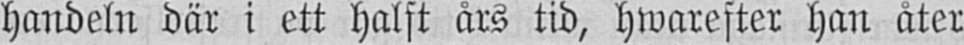handeln där i ett halft års tid, hwarefter han åter
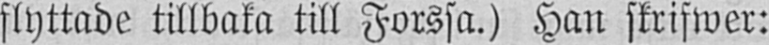flyttade tillbaka till Forssa.) Han skrifwer:
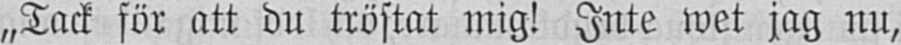„Tack för att du tröstat mig! Inte wet jag nu,
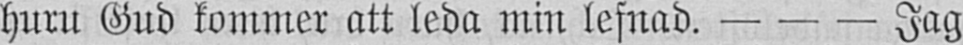huru Gud kommer att leda min lefnad. Jag
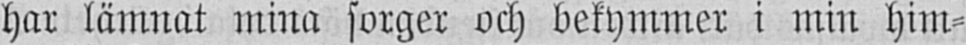har lämnat mina sorger och bekymmer i min him-
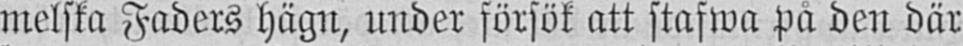melska Faders hägn, under försök att stafwa på den där
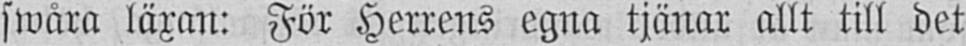swåra läxan: För Herrens egna tjänar allt till det
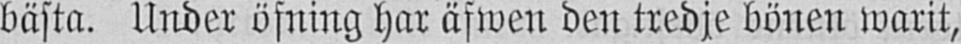bästa. Under öfning har äfwen den tredje bönen warit,
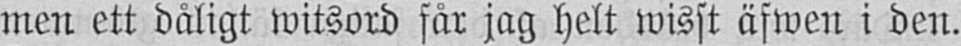men ett dåligt witsord får jag helt wisst äfwen i den.
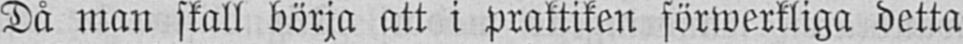Då man skall börja att i praktiken förwerkliga detta
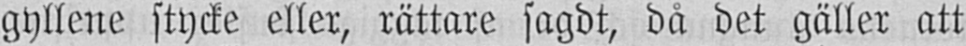gyllene stycke eller, rättare sagdt, då det gäller att
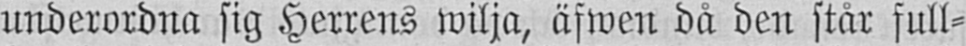underordna sig Herrens wilja, äfwen då den står full-
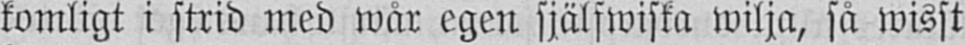komligt i strid med wår egen själfwiska wilja, så wisst
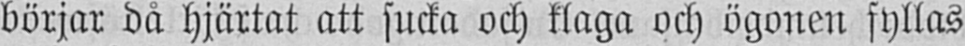börjar då hjärtat att sucka och klaga och ögonen fyllas
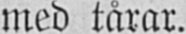med tårar.
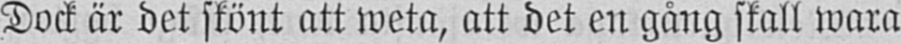Dock är det skönt att weta, att det en gång skall wara
